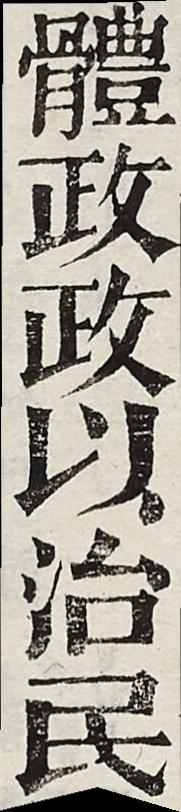體政政以治民
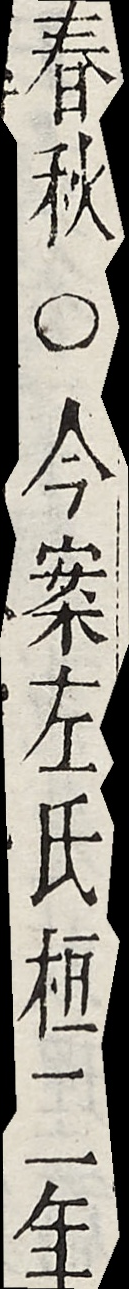春秋○今案左氏桓二年
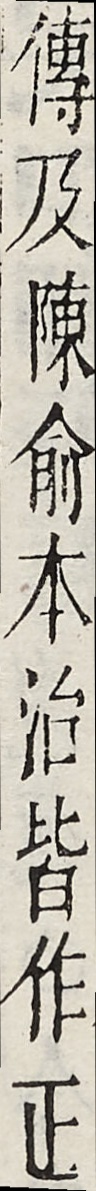傳及陳俞本治皆作正
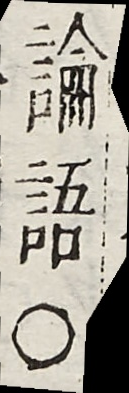論語○
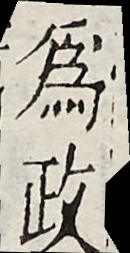為政
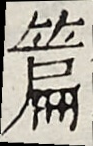篇
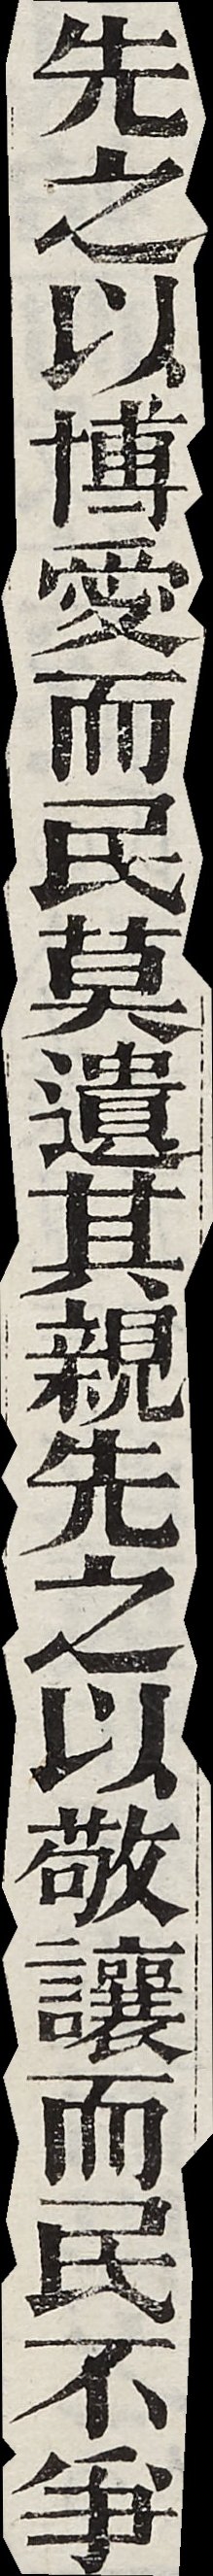先之以博愛而民莫遺其親先之以敬讓而民不爭
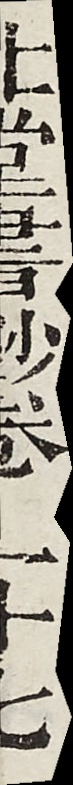北堂書鈔卷二七
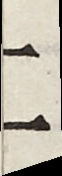二
